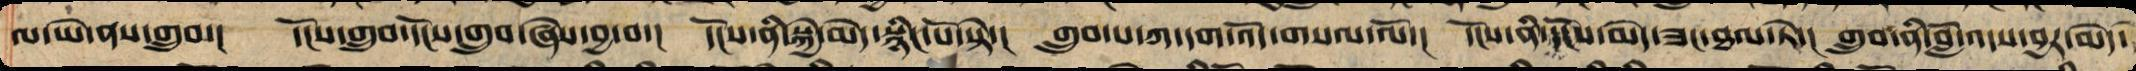ལ་ཡེ་ནས་གྲུབ་།  དངོས་གྲུབ་དངོས་གྲུབ་ཞེས་བྱ་བ་།  དངོས་ནི་སྐྱེ་མེད་སྙིང་པོ་སྟེ་།  གྲུབ་པ་ཀ་དག་འོད་གསལ་ལོ་།  དངོས་ནི་དངོས་མེད་ཟང་ཐལ་ཏེ་།  གྲུབ་ནི་བློ་འདས་བྱར་མེད་
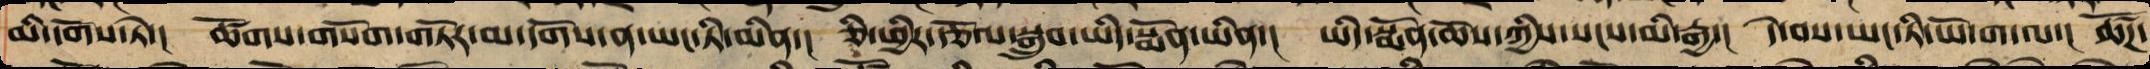མི་དགོས་ཏེ་། ཚོགས་གསོག་གཏོར་མ་དགོས་ན་ཡང་ཏི་མིན་། ཅི་ཕྱིར་རྩོལ་སྒྲུབ་ཡིད་སྨོན་ཡིན་། ཡིད་སྨོན་ཆོས་ཀྱིས་སངས་མི་རྒྱ་། དེ་བས་ཡང་ཏི་ཡོ་ག་ལ་། ཚོཌ་
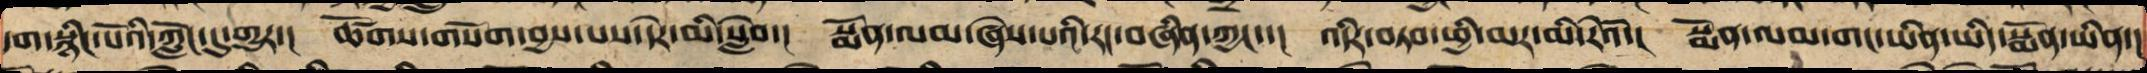དག་སྙིང་པོའི་ཀློང་དུ་གྱུར་།  ཚོགས་གསོག་བྱས་པས་དེར་མི་སླེབ་།  སྨོན་ལམ་ཞེས་པའི་རང་བཞིན་ཀྱང་་།  འདིར་བཏབ་ཕྱི་མར་མི་རེའོ་།  སྨོན་ལམ་གང་ཡིན་ཡིད་སྨོན་ཡིན་།
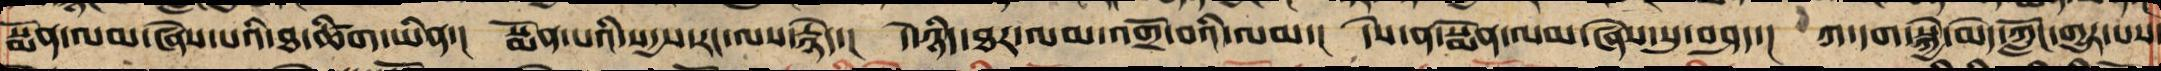སྨོན་ལམ་ཞེས་པའི་ཐ་ཚིག་ཡིན་།  སྨོན་པའི་སདྱས་རང་ལ་རྙེད་།  དེ་ཉིད་ཐར་ལམ་འགྲོ་བའི་ལམ་།  དེས་ན་སྨོན་ལམ་ཞེས་སུ་བཤད་།  ཀ་དག་སྐྱེ་མེད་ཀློང་གྱུར་པས་
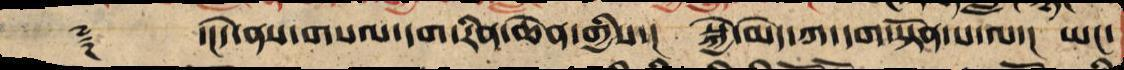༈    ་།།དེ་ནས་གསལ་དག་རིན་ཆེན་གྱིས་།  སྐྱེ་མེད་ཀ་དག་སྟོན་པ་ལ་།  ཡང་
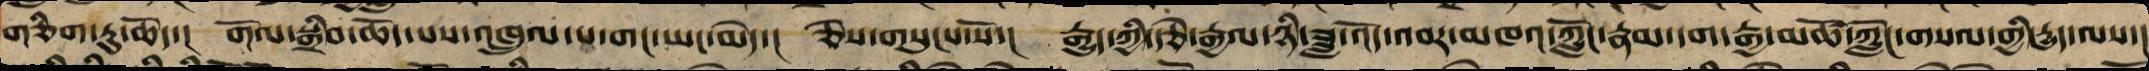གཅིག་ཏུ་ཆོད་། གོལ་སྒྲིབ་ཆོད་པས་འཁྲུལ་པ་གང་ཡང་མེད་། ཅེས་གསུངས་སོ་། རྒྱུད་ཀྱི་རྩེ་རྒྱལ་ཉི་ཟླ་འོད་འབར་མཁའ་ཀློང་རྣམ་དག་རྒྱ་མཚོ་ཀློང་གསལ་གྱི་རྒྱུད་ལས་།
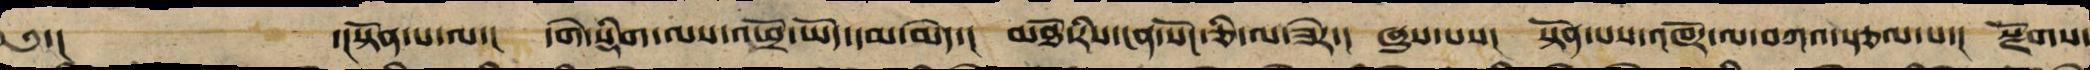༅་།       ་།སྟོན་པ་ལ་།  དགེ་སྡིག་ལས་འཕྲོ་ཡོད་དམ་མེད་།  མཐོ་རིས་ངན་སོང་ཅི་ལ་ཟེར་།  ཞུས་པས། སྟོན་པས་འཁོར་ལ་བཀའ་སྩལ་པ་།  སྫོགས་
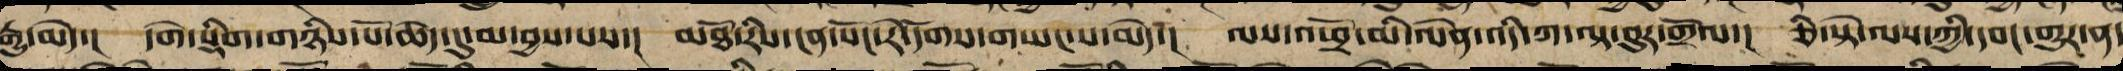རྒྱུ་མེད་།  དགེ་སྡིག་གཉིས་པོ་ཆེད་དུ་མ་བྱས་པས་།  མཐོ་རིས་ངན་སོང་རེ་དོགས་གཡང་ས་མེད་།  ལས་འཕྲོ་མི་ལེན་འདི་ཀ་ལྟ་བུར་གྲོལ་།  ཅི་སྟེ་ལས་ཀྱི་དབང་གྱུར་ན་
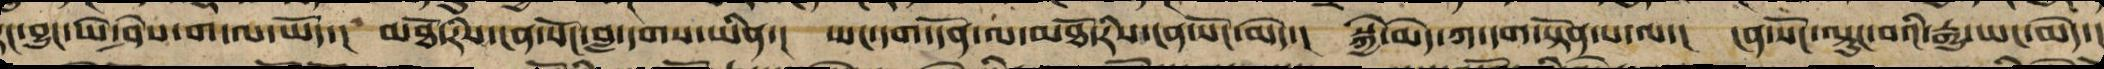རང་བྱུང་ཡེ་ཤེས་ག་ལ་ཡོད་།  མཐོ་རིས་ངན་སོང་བླ་དྭགས་ཡིན་།  ཡང་དག་དོན་ལ་མཐོ་རིས་ངན་སོང་མེད་།  སྐྱེ་མེད་ཀ་དག་རྟོགས་པ་ལ་།  ངན་སོང་ལྟུང་བའི་རྒྱུ་ཡང་མེད་།
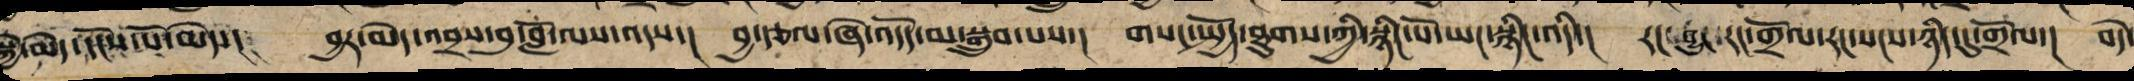སྐྱེ་མེད་དངོས་པོ་མེད་། བྱར་མེད་འབྲས་བུ་བློ་ལས་འདས་། བྱ་བཙལ་ཞེ་འདོད་མ་བསྒྲུབས་པས་། གསང་སྤྱོད་འཕྲུལ་གྱི་སྙིང་པོ་ཡང་སྙིང་འདི་། རང་བྱུང་རང་གྲོལ་རང་སངས་ཉིད་དུ་གྲོལ་། བདེ་
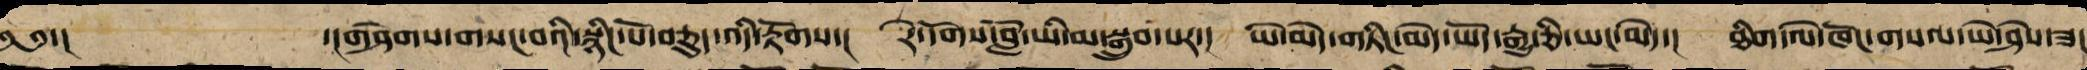༄༅་། ་།གཤེགས་གསང་བའི་སྙིང་པོའི་བཅུད་འདི་རྟོགས་། རེ་དོགས་བློ་ཡིས་མ་བསྒྲུབས་པས་། ཡེ་མེད་གཏིང་མེད་ཡོད་རྒྱུ་ཅི་ཡང་མེད་། ཐིག་ལེ་ཁོང་གསལ་ཡེ་ཤེས་ཟད
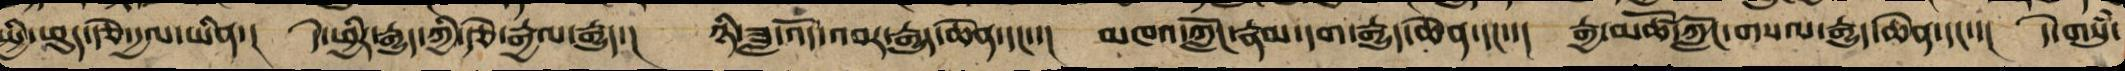སྤྱི་ཕུད་རྩེ་རྒྱལ་ཡིན་། དེ་ཕྱིར་རྒྱུད་ཀྱི་རྩེ་རྒྱལ་རྒྱུད་། ཉི་ཟླ་འོད་འབར་རྒྱུད་ཆེན་དང་་། མཁའ་ཀློང་རྣམ་དག་རྒྱུད་ཆེན་དང་་། རྒྱ་མཚོ་ཀློང་གསལ་རྒྱུད་ཆེན་དང་་། དེ་གསུཾ་
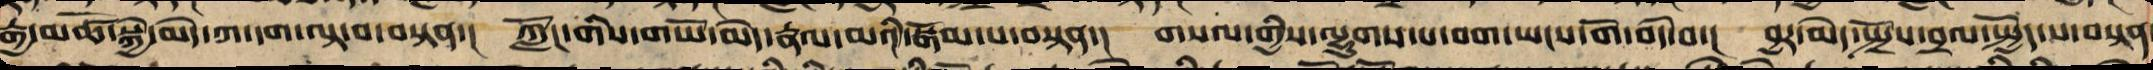རྒྱ་མཚོ་སྐྱེ་མེད་ཀ་དག་ལྟ་བ་བསྟན་། ཀློང་གིས་གཡོ་མེད་རྣལ་མའི་སྒོམ་པ་བསྟན་། གསལ་གྱིས་ལྷུག་པ་བག་ཡངས་གོ་བདེ་བ་། བྱར་མེད་སྤྲོས་བྲལ་སྤྱོད་པ་བསྟན
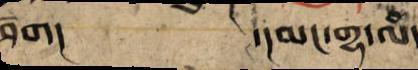ཤོག།                   ་།མང་གྷ་ལཾ།
